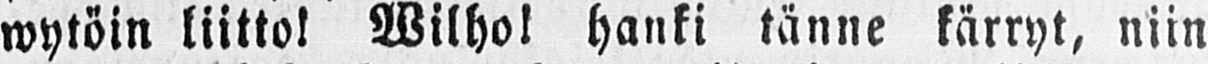wytöin liitto! Wilho! hanki tänne kärryt, niin
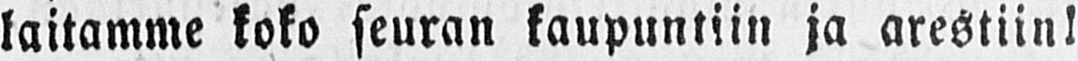laitamme koko seuran kaupuntiin ja arestiin!
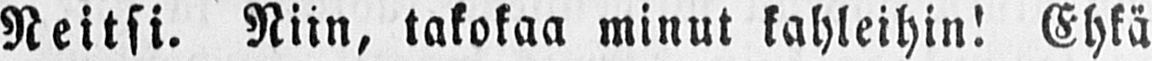Neitsi. Niin, takokaa minut kahleihin! Ehkä
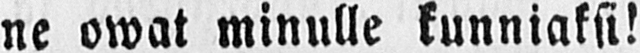ne owat minulle kunniaksi!
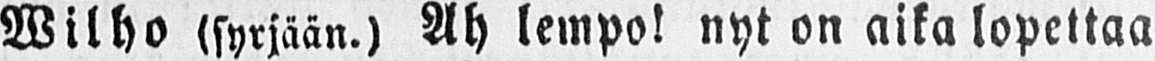Wilho (syrjään.) Ah lempo! nyt on aika lopettaa
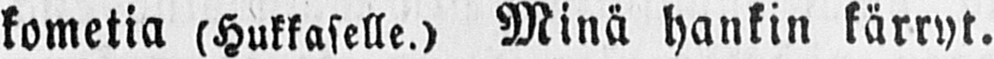kometia (Hukkaselle.) Minä hankin kärryt.
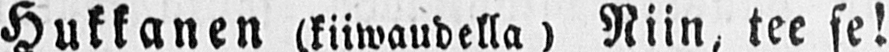Hukkanen (kiiwaudella) Niin, tee se!
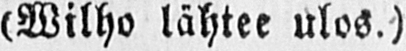(Wilho lähtee ulos.)
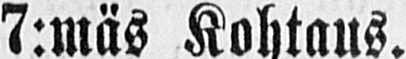7:mäs Kohtaus.
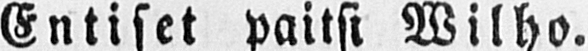Entiset paitsi Wilho.
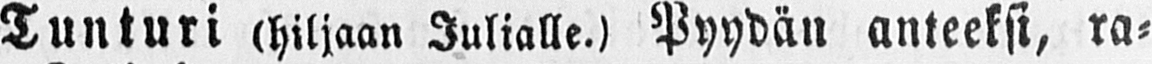Tunturi (hiljaan Julialle.) Pyydän anteeksi, ra-
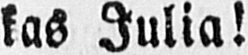kas Julia!
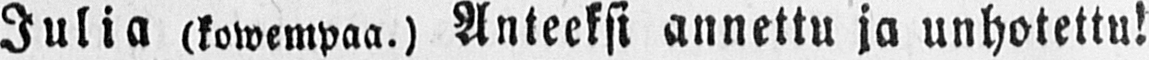Julia (kowempaa.) Anteeksi annettu ja unhotettu!
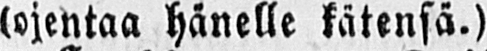(ojentaa hänelle kätensä.)
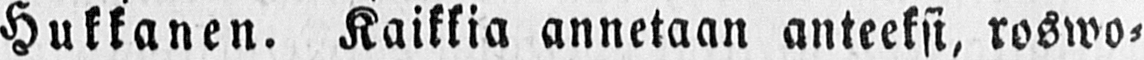Hukkanen. Kaikkia annetaan anteeksi, roswo-
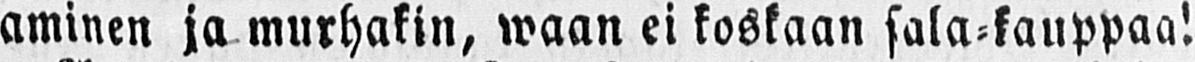aminen ja murhakin, waan ei koskaan sala-kauppaa!
